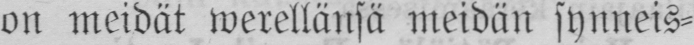on meidät werellänsä meidän synneis-
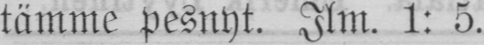tämme pesnyt. Ilm. 1: 5.
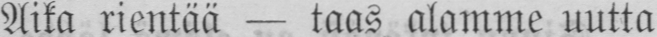Aika rientää — taas alamme uutta
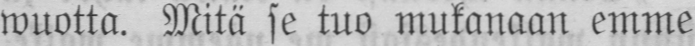wuotta. Mitä se tuo mukanaan emme
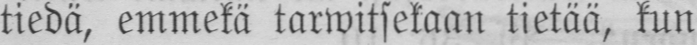tiedä, emmekä tarwitsekaan tietää, kun
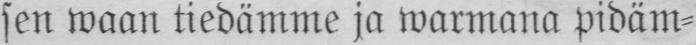sen waan tiedämme ja warmana pidäm-
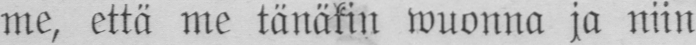me, että me tänäkin wuonna ja niin
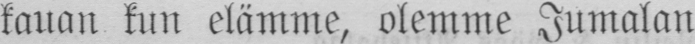kauan kun elämme, olemme Jumalan
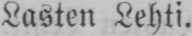Lasten Lehti.
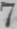7
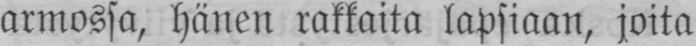armossa, hänen rakkaita lapsiaan, joita
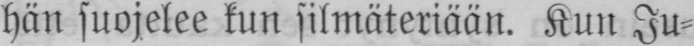hän suojelee kun silmäteriään. Kun Ju-
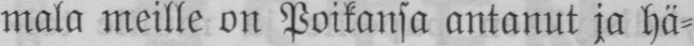mala meille on Poikansa antanut ja hä-
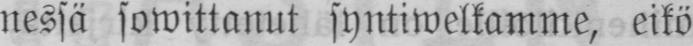nessä sowittanut syntiwelkamme, eikö
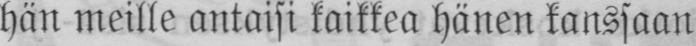hän meille antaisi kaikkea hänen kanssaan
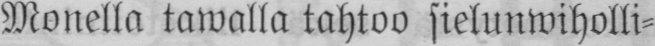Monella tawalla tahtoo sielunwiholli-
